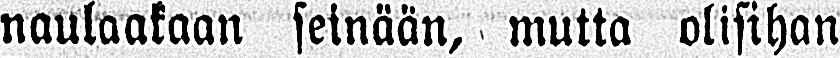naulaakaan seinään, mutta olisihan
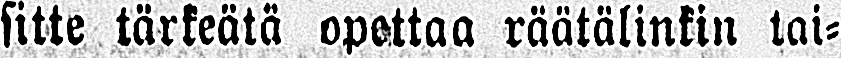sitte tärkeätä opettaa räätälinkin tai-
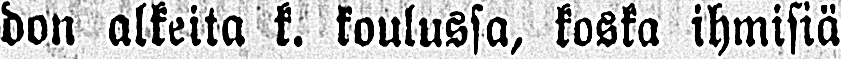don alkeita k. koulussa, koska ihmisiä
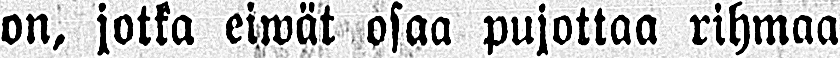on, jotka eiwät osaa pujottaa rihmaa
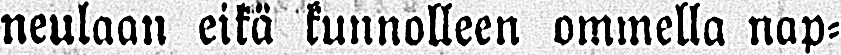neulaan eikä kunnolleen ommella nap-
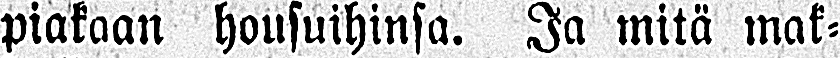piakaan housuihinsa. Ja mitä mak-
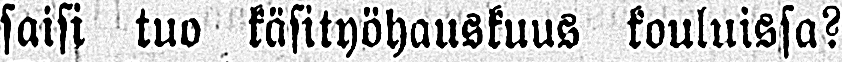saisi tuo käsityöhauskuus kouluissa?
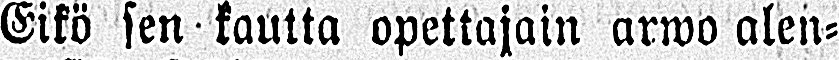Eikö sen kautta opettajain arwo alen-
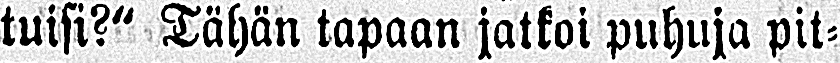tuisi?" Tähän tapaan jatkoi puhuja pit-
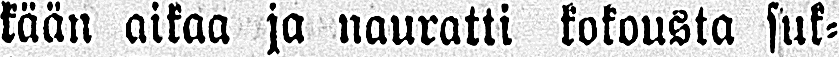kään aikaa ja nauratti kokousta suk-
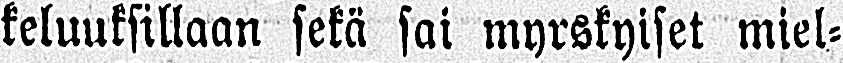keluuksillaan sekä sai myrskyiset miel-
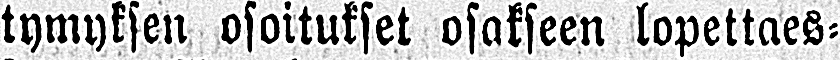tymyksen osoitukset osakseen lopettaes-
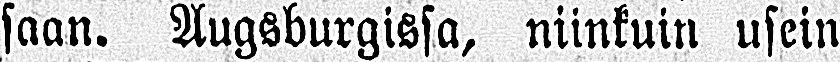saan. Augsburgissa, niinkuin usein
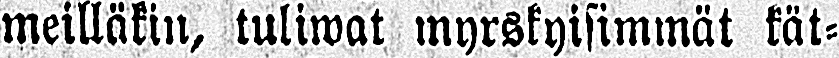meilläkin, tuliwat myrskyisimmät kät-
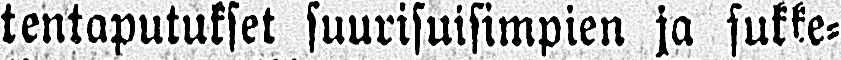tentaputukset suurisuisimpien ja sukke-
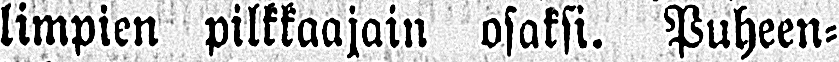limpien pilkkaajain osaksi. Puheen-
